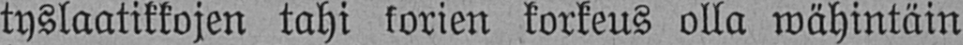tyslaatikkojen tahi korien korkeus olla wähintäin
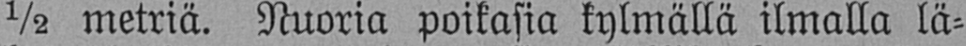½ metriä. Nuoria poikasia kylmällä ilmalla lä-
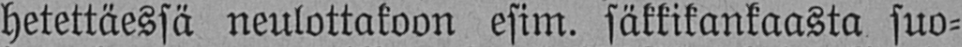hetettäessä neulottakoon esim. säkkikankaasta suo-
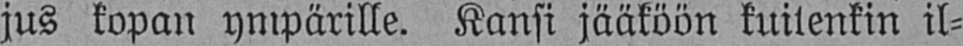jus kopan ympärille. Kansi jääköön kuitenkin il-
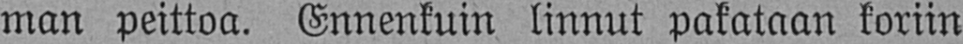man peittoa. Ennenkuin linnut pakataan koriin
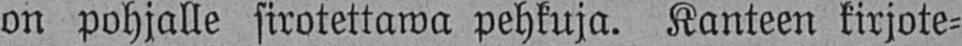on pohjalle sirotettawa pehkuja. Kanteen kirjote-
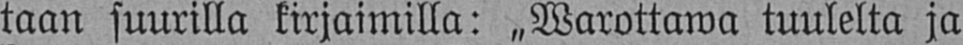taan suurilla kirjaimilla: „Warottawa tuulelta ja
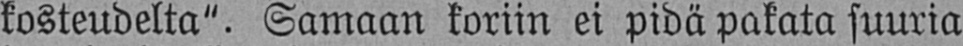kosteudelta". Samaan koriin ei pidä pakata suuria
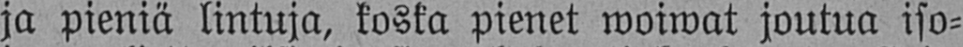ja pieniä lintuja, koska pienet woiwat joutua iso-
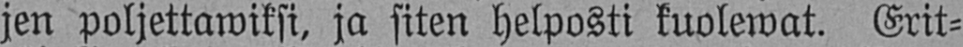jen poljettawiksi, ja siten helposti kuolewat. Erit-
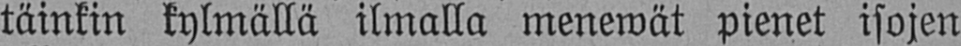täinkin kylmällä ilmalla menewät pienet isojen
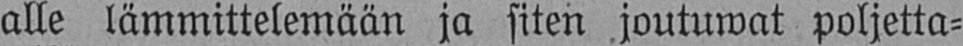alle lämmittelemään ja siten joutuwat poljetta-
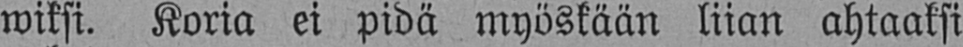wiksi. Koria ei pidä myöskään liian ahtaaksi
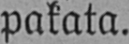pakata.
